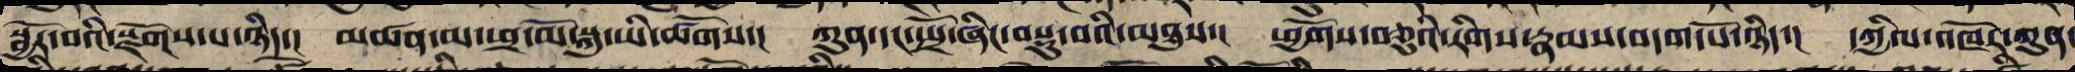སྦྱོར་བས་སྫོགས་པ་ཉིད་། མཚན་མ་ཕྲ་མོ་སྐུ་ཡི་ཚོགས་། ཀུན་ནས་སྤྲོ་ཞིང་བསྡུ་བའི་མཐུས་། ཕྱོགས་བཅུའི་རིགས་རྣམས་བདག་པོ་ཉིད་། དཀྱིལ་འཁོར་ཀུན་
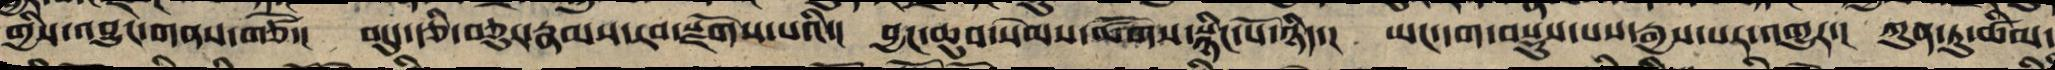གྱི་འབྱུང་གནས་གཙོ་། བདུད་རྩི་བཅུད་རྣམས་རབ་སྫོགས་པའི་། བྱང་ཆུབ་སེམས་ཚོགས་སྙིང་པོ་ཉིད་། ཡང་དག་བསྡུས་པས་རྒྱས་པར་འགྱུར་། ཀུན་ཏུ་ཚིམ་
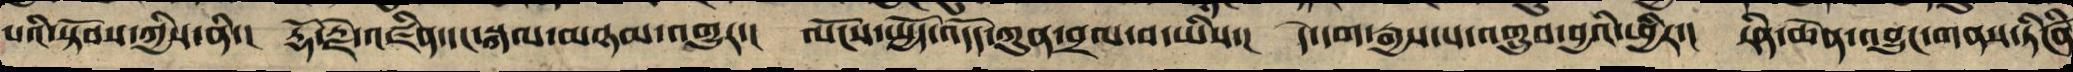པའི་སྟོབས་ཀྱིས་ནི་། རྡོ་རྗེ་འཛིན་དང་སྐལ་མཉམ་འགྱུར་། ལོངས་སྤྱོད་འདོད་ཀུན་བྲལ་བ་ཡིས་། དེ་དག་རྒྱས་པ་འགྲུབ་བྱའི་ཕྱིར་། རིན་ཆེན་འབྱུང་གནས་ཏིངཛིན
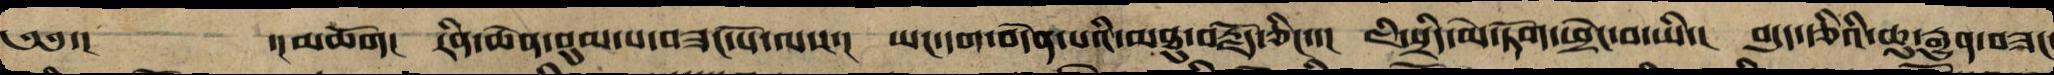༄༅་། ་།མཆོག། རིན་ཆེན་བུམ་པ་བཟང་པོ་ལས་། ཡང་དག་བདེན་པའི་མཐུ་བརྗོད་ཅིང་་། ཇི་སྲིད་མེ་ཏོག་ཕྲེང་བ་ཡི་། བདུད་རྩིའི་ཆུ་རྒྱུན་བཟང་
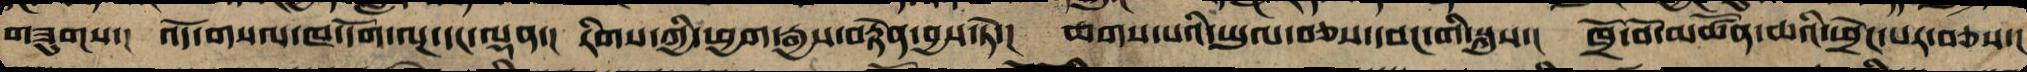གཟུགས་། འོད་གསལ་ཁ་དོག་ལྔ་དང་ལྡན་། རིགས་ཀྱི་ཕྱག་རྒྱས་བརྟེན་བྱས་ཏེ་། ཆགས་པའི་ཡུལ་བཅས་དབང་གི་སྐུས་། ཁྲོ་བོ་མཚོན་ཆའི་ཕྲེང་བར་བཅས་།
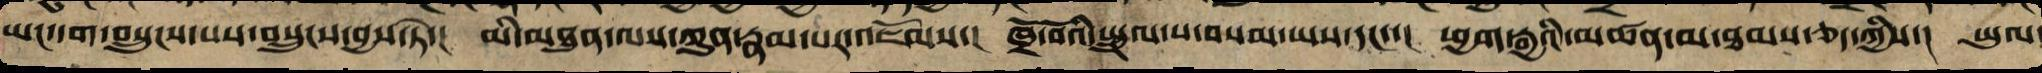ཡང་དག་སྲུང་བས་བསྲུང་བྱས་ཏེ་། མི་མཐུན་ལས་ཀུན་རྣམ་པར་འཇོམས་། ཁྲོ་བོའི་སྤྲུལ་པ་བསམ་ཡས་དང་་། ཕྱག་རྒྱའི་མཚན་མ་ཐམས་ཅད་ཀྱིས་། ཡུལ
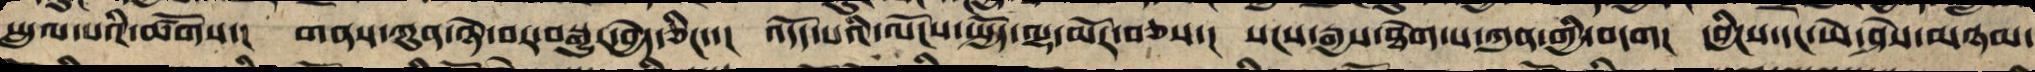སྤྲུལ་པའི་ཚོགས་། གནས་ཀུན་ཉེ་བར་བསྒྱུར་བྱེད་ཅིང་་། འདོད་པའི་ལོངས་སྤྱོད་ལྷ་མོར་བཅས་། སངས་རྒྱས་ཐེག་པ་ཀུན་གྱི་བདག། དབྱིངས་དང་ཡེ་ཤེས་མཉམ་
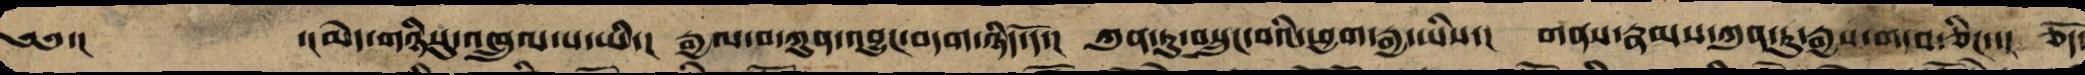༄༅་། ་།མེད་གཉིསུ་འཁྲུལ་པ་ཡི་། རྒྱལ་བ་ཀུན་འབྱུང་བདག་ཉིད་དོ་། ཀུན་ཏུ་བསྲུང་བའི་ཕྱག་རྒྱ་ཡིས་། གནས་རྣམས་ཀུན་ཏུ་རྒྱས་གདབ་ཅིང་་། ཅོད་
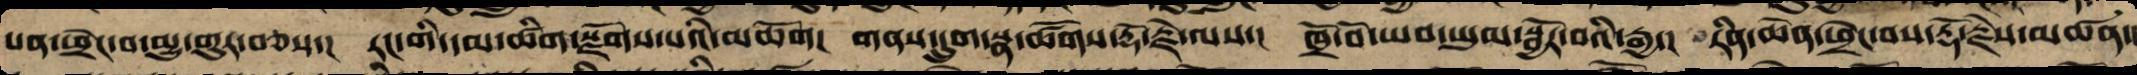པན་ཕྲེང་བ་མྱུ་གུར་བཅས་། རང་གི་དམ་ཚིག་སྫོགས་པའི་མཆོག། གནས་དྲུག་སྣ་ཚོགས་རྡོ་རྗེ་ལས་། ཁྲོ་བོ་ཡབ་ཡུམ་སྦྱོར་བའི་རྒྱ་། རིན་ཆེན་ཕྲེང་བ་རྡོ་རྗེས་མཚན་
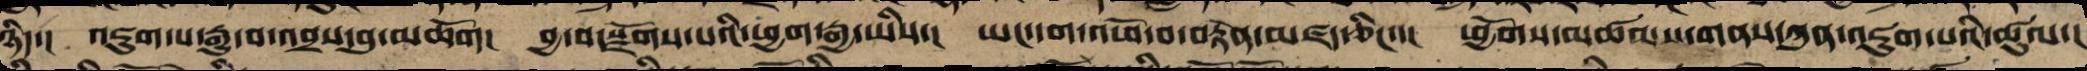ཉིད་། འཇུག་པ་རྒྱུ་དང་འབྲས་བུ་མཆོག། བྱ་བ་སྫོགས་པའི་ཕྱག་རྒྱ་ཡིས་། ཡང་དག་འཕོ་བ་བརྟེན་མཛད་ཅིང་་། ཕྱོགས་མཚམས་གནས་ཀུན་འཇུག་པའི་ཚུལ་།
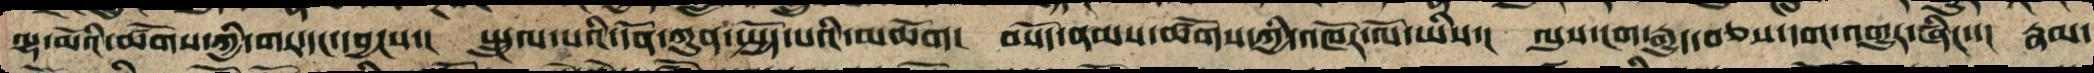ལྷ་མོའི་ཚོགས་ཀྱི་གར་དང་དབྱངས་། སྤྲུལ་པའི་དོན་ཀུན་སྤྱོད་པའི་མཆོག། བསོད་ནམས་ཚོགས་ཀྱི་འཁོར་ལོ་ཡིས་། ལུས་ངག་རྒྱུད་བཅས་དག་འགྱུར་ཞིང་་། རྣལ་
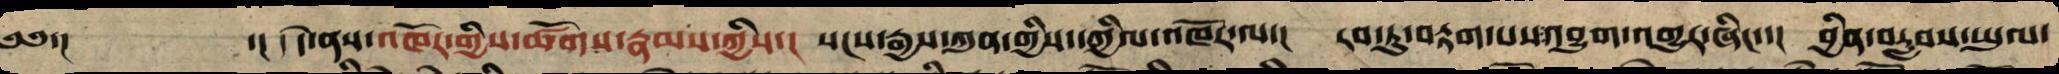༄༅་།  ་།དེ་ནས་འཁོར་གྱི་ཚོགས་རྣམས་ཀྱིས་། སངས་རྒྱས་ཀུན་གྱི་དཀྱིལ་འཁོར་ལ་། རབ་ཏུ་བརྟག་པས་འཇུག་གྱུར་ཞིང་་། བྱིན་བརླབས་ཡུལ་
